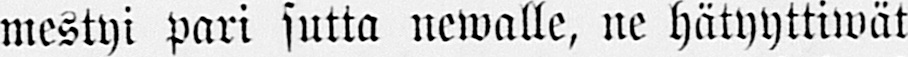mestyi pari sutta newalle, ne hätyyttiwät
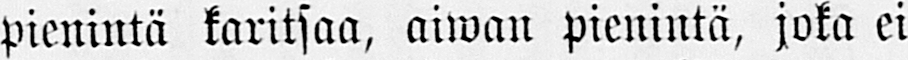pienintä karitsaa, aiwan pienintä, joka ei
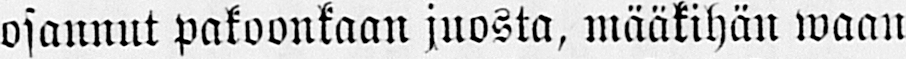osannut pakoonkaan juosta, määkihän waan
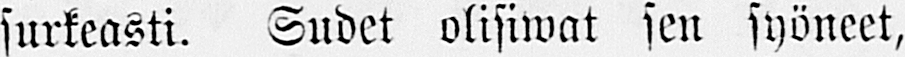surkeasti. Sudet olisiwat sen syöneet,
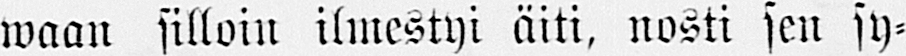waan silloin ilmestyi äiti, nosti sen sy-
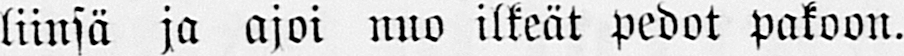liinsä ja ajoi nuo ilkeät pedot pakoon.
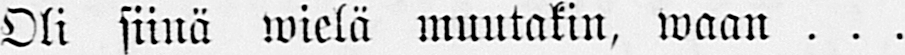Oli siinä wielä muutakin, waan . . .
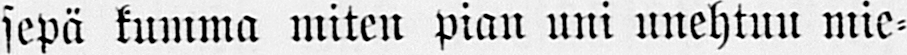sepä kumma miten pian uni unehtuu mie-
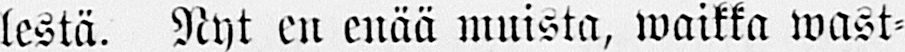lestä. Nyt en enää muista, waikka wast-
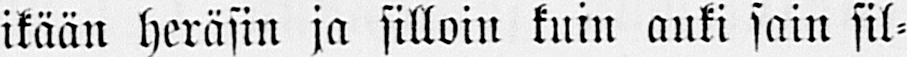ikään heräsin ja silloin kuin auki sain sil-
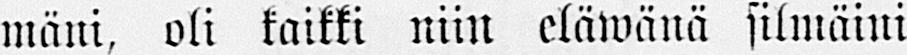mäni, oli kaikki niin eläwänä silmäini
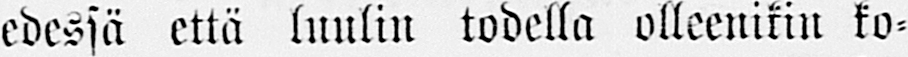edessä että luulin todella olleenikin ko-
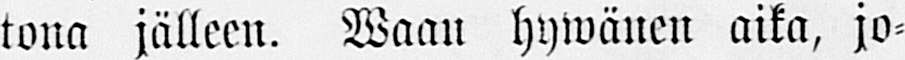tona jälleen. Waan hywänen aika, jo-
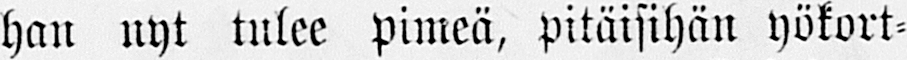han nyt tulee pimeä, pitäisihän yökort-
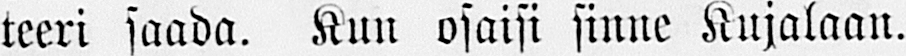teeri saada. Kun osaisi sinne Kujalaan.
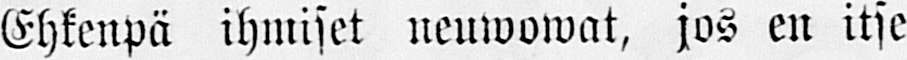Ehkenpä ihmiset neuwowat, jos en itse
